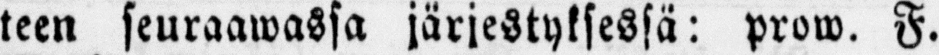teen seuraawassa järjestyksessä: prow. F.
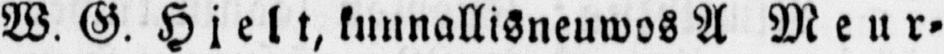W. G. Hjelt, kulinallisneuwos A Meur-
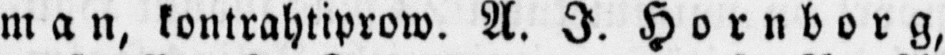man, kontrahliprow. A. I. Hornborg,
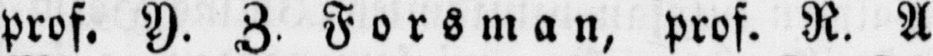prof. Y. Z. Forsman, prof. R. A.
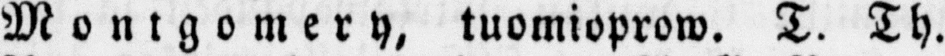Montgomery, tuomioprow. T. Th.
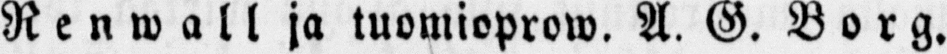Renwall ja tuomioprow. A. G. Borg.
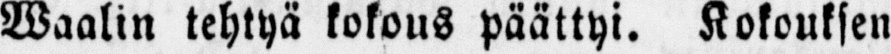Waalin tehtyä kokous päättyi. Kokouksen
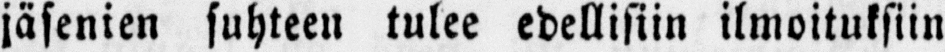jäsenien suhteen tulee edellisiin ilmoituksiin
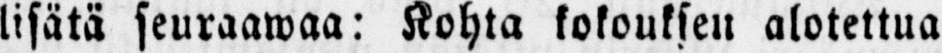lisätä seuraawaa: Kohta kokouksen alotettua
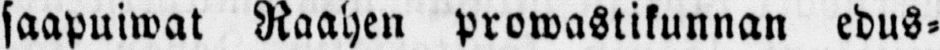saapuiwat Raahen prowastikunnan edus-
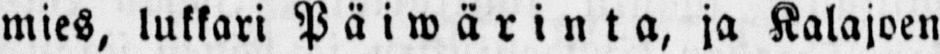mies, lukkari Päiwärinta, ja Kalajoen
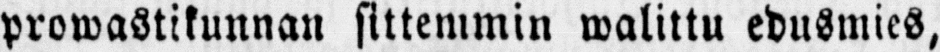prowastikunnan sittemmin walittu edusmies,
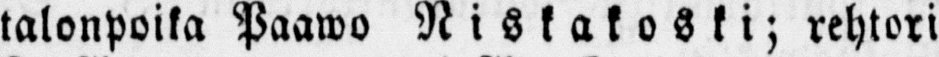talonpoika Paawo Niskakoski; rehtori
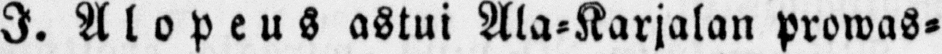I. Alopeus astui Ala-Karjalan prowas-
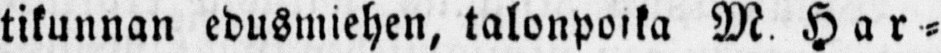tikunnan edusmiehen, talonpoika M. Har-
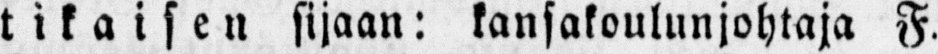tikaisen sijaan: kansakoulunjohtaja F.
